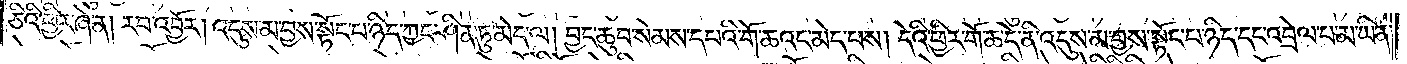ཅིའི་ཕྱིར་ཞེ་ན། རབ་འབྱོར། འདུས་མ་བྱས་སྟོང་པ་ཉིད་ཀྱང་ཤིན་ཏུ་མེད་ལ། བྱང་ཆུབ་སེམས་དཔའི་གོ་ཆའང་མེད་པས། དེའི་ཕྱིར་གོ་ཆ་དེ་ནི་འདུས་མ་བྱས་སྟོང་པ་ཉིད་དང་འབྲེལ་པ་མ་ཡིན་
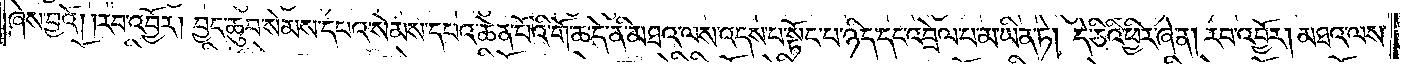ཞེས་བྱའོ། །རབ་འབྱོར། བྱང་ཆུབ་སེམས་དཔའ་སེམས་དཔའ་ཆེན་པོའི་གོ་ཆ་དེ་ནི་མཐའ་ལས་འདས་པ་སྟོང་པ་ཉིད་དང་འབྲེལ་པ་མ་ཡིན་ཏེ། དེ་ཅིའི་ཕྱིར་ཞེ་ན། རབ་འབྱོར། མཐའ་ལས་
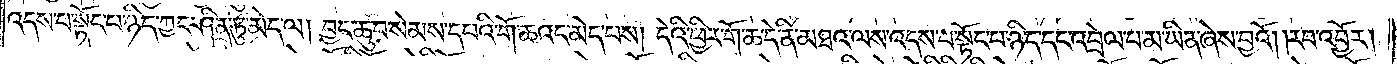འདས་པ་སྟོང་པ་ཉིད་ཀྱང་ཤིན་ཏུ་མེད་ལ། བྱང་ཆུབ་སེམས་དཔའི་གོ་ཆའང་མེད་པས། དེའི་ཕྱིར་གོ་ཆ་དེ་ནི་མཐའ་ལས་འདས་པ་སྟོང་པ་ཉིད་དང་འབྲེལ་པ་མ་ཡིན་ཞེས་བྱའོ། །རབ་འབྱོར།
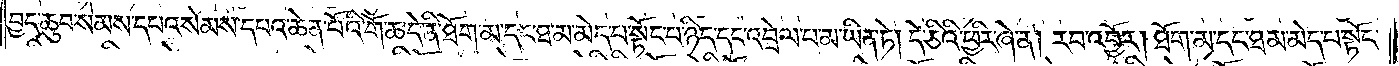བྱང་ཆུབ་སེམས་དཔའ་སེམས་དཔའ་ཆེན་པོའི་གོ་ཆ་དེ་ནི་ཐོག་མ་དང་ཐ་མ་མེད་པ་སྟོང་པ་ཉིད་དང་འབྲེལ་པ་མ་ཡིན་ཏེ། དེ་ཅིའི་ཕྱིར་ཞེ་ན། རབ་འབྱོར། ཐོག་མ་དང་ཐ་མ་མེད་པ་སྟོང་
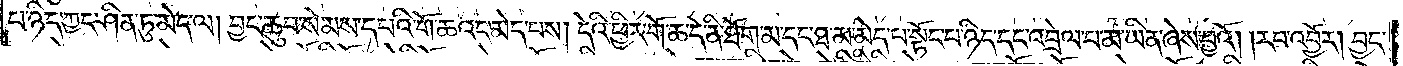པ་ཉིད་ཀྱང་ཤིན་ཏུ་མེད་ལ། བྱང་ཆུབ་སེམས་དཔའི་གོ་ཆའང་མེད་པས། དེའི་ཕྱིར་གོ་ཆ་དེ་ནི་ཐོག་མ་དང་ཐ་མ་མེད་པ་སྟོང་པ་ཉིད་དང་འབྲེལ་པ་མ་ཡིན་ཞེས་བྱའོ། །རབ་འབྱོར། བྱང་
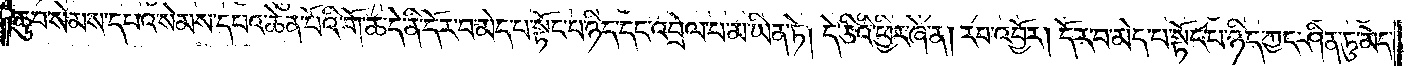ཆུབ་སེམས་དཔའ་སེམས་དཔའ་ཆེན་པོའི་གོ་ཆ་དེ་ནི་དོར་བ་མེད་པ་སྟོང་པ་ཉིད་དང་འབྲེལ་པ་མ་ཡིན་ཏེ། དེ་ཅིའི་ཕྱིར་ཞེ་ན། རབ་འབྱོར། དོར་བ་མེད་པ་སྟོང་པ་ཉིད་ཀྱང་ཤིན་ཏུ་མེད་
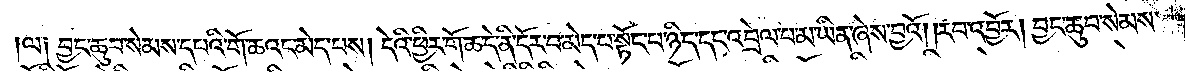ལ། བྱང་ཆུབ་སེམས་དཔའི་གོ་ཆའང་མེད་པས། དེའི་ཕྱིར་གོ་ཆ་དེ་ནི་དོར་བ་མེད་པ་སྟོང་པ་ཉིད་དང་འབྲེལ་པ་མ་ཡིན་ཞེས་བྱའོ། །རབ་འབྱོར། བྱང་ཆུབ་སེམས་
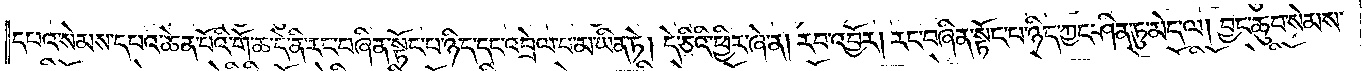དཔའ་སེམས་དཔའ་ཆེན་པོའི་གོ་ཆ་དེ་ནི་རང་བཞིན་སྟོང་པ་ཉིད་དང་འབྲེལ་བ་མ་ཡིན་ཏེ། དེ་ཅིའི་ཕྱིར་ཞེ་ན། རབ་འབྱོར། རང་བཞིན་སྟོང་པ་ཉིད་ཀྱང་ཤིན་ཏུ་མེད་ལ། བྱང་ཆུབ་སེམས་
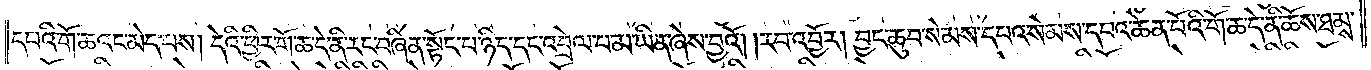དཔའི་གོ་ཆའང་མེད་པས། དེའི་ཕྱིར་གོ་ཆ་དེ་ནི་རང་བཞིན་སྟོང་པ་ཉིད་དང་འབྲེལ་པ་མ་ཡིན་ཞེས་བྱའོ། །རབ་འབྱོར། བྱང་ཆུབ་སེམས་དཔའ་སེམས་དཔའ་ཆེན་པོའི་གོ་ཆ་དེ་ནི་ཆོས་ཐམས་
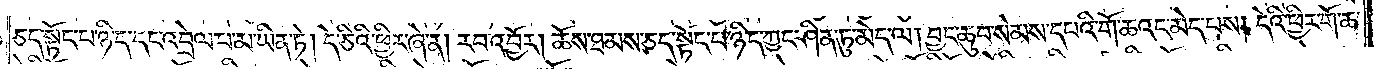ཅད་སྟོང་པ་ཉིད་དང་འབྲེལ་པ་མ་ཡིན་ཏེ། དེ་ཅིའི་ཕྱིར་ཞེ་ན། རབ་འབྱོར། ཆོས་ཐམས་ཅད་སྟོང་པ་ཉིད་ཀྱང་ཤིན་ཏུ་མེད་ལ། བྱང་ཆུབ་སེམས་དཔའི་གོ་ཆའང་མེད་པས། དེའི་ཕྱིར་གོ་ཆ་
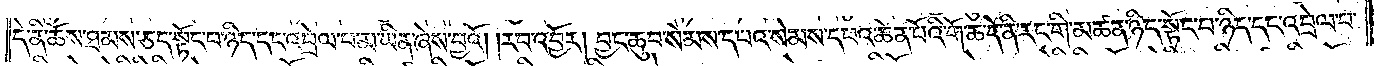དེ་ནི་ཆོས་ཐམས་ཅད་སྟོང་པ་ཉིད་དང་འབྲེལ་པ་མ་ཡིན་ཞེས་བྱའོ། །རབ་འབྱོར། བྱང་ཆུབ་སེམས་དཔའ་སེམས་དཔའ་ཆེན་པོའི་གོ་ཆ་དེ་ནི་རང་གི་མཚན་ཉིད་སྟོང་པ་ཉིད་དང་འབྲེལ་པ་
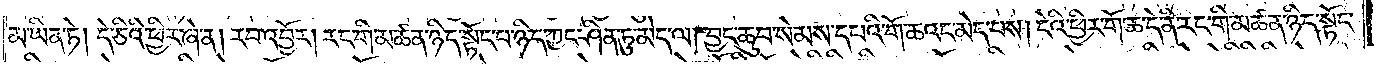མ་ཡིན་ཏེ། དེ་ཅིའི་ཕྱིར་ཞེ་ན། རབ་འབྱོར། རང་གི་མཚན་ཉིད་སྟོང་པ་ཉིད་ཀྱང་ཤིན་ཏུ་མེད་ལ། བྱང་ཆུབ་སེམས་དཔའི་གོ་ཆའང་མེད་པས། དེའི་ཕྱིར་གོ་ཆ་དེ་ནི་རང་གི་མཚན་ཉིད་སྟོང་
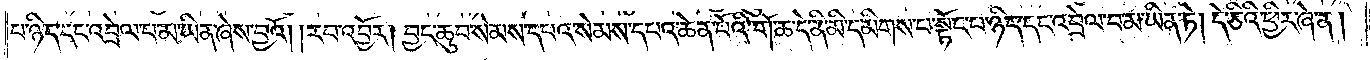པ་ཉིད་དང་འབྲེལ་པ་མ་ཡིན་ཞེས་བྱའོ། །རབ་འབྱོར། བྱང་ཆུབ་སེམས་དཔའ་སེམས་དཔའ་ཆེན་པོའི་གོ་ཆ་དེ་ནི་མི་དམིགས་པ་སྟོང་པ་ཉིད་དང་འབྲེལ་པ་མ་ཡིན་ཏེ། དེ་ཅིའི་ཕྱིར་ཞེ་ན།
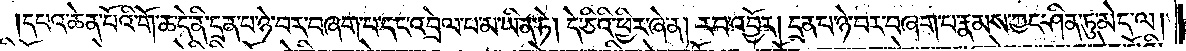དཔའ་ཆེན་པོའི་གོ་ཆ་དེ་ནི་དྲན་པ་ཉེ་བར་བཞག་པ་དང་འབྲེལ་པ་མ་ཡིན་ཏེ། དེ་ཅིའི་ཕྱིར་ཞེ་ན། རབ་འབྱོར། དྲན་པ་ཉེ་བར་བཞག་པ་རྣམས་ཀྱང་ཤིན་ཏུ་མེད་ལ།
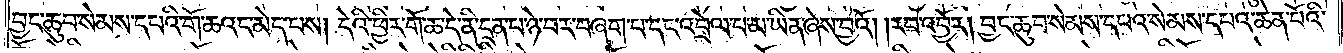བྱང་ཆུབ་སེམས་དཔའི་གོ་ཆའང་མེད་པས། དེའི་ཕྱིར་གོ་ཆ་དེ་ནི་དྲན་པ་ཉེ་བར་བཞག་པ་དང་འབྲེལ་པ་མ་ཡིན་ཞེས་བྱའོ། །རབ་འབྱོར། བྱང་ཆུབ་སེམས་དཔའ་སེམས་དཔའ་ཆེན་པོའི་
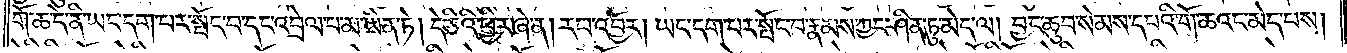གོ་ཆ་དེ་ནི་ཡང་དག་པར་སྤོང་བ་དང་འབྲེལ་པ་མ་ཡིན་ཏེ། དེ་ཅིའི་ཕྱིར་ཞེ་ན། རབ་འབྱོར། ཡང་དག་པར་སྤོང་བ་རྣམས་ཀྱང་ཤིན་ཏུ་མེད་ལ། བྱང་ཆུབ་སེམས་དཔའི་གོ་ཆའང་མེད་པས།
